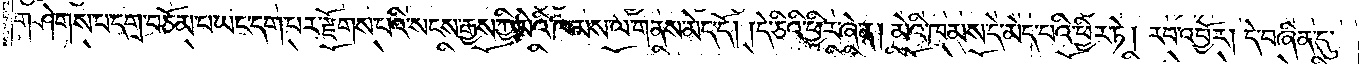གཤེགས་པ་དགྲ་བཅོམ་པ་ཡང་དག་པར་རྫོགས་པའི་སངས་རྒྱས་ཀྱི་མེའི་ཁམས་ལ་གནས་མེད་དོ། །དེ་ཅིའི་ཕྱིར་ཞེ་ན། མེའི་ཁམས་དེ་མེད་པའི་ཕྱིར་ཏེ། རབ་འབྱོར། དེ་བཞིན་དུ་
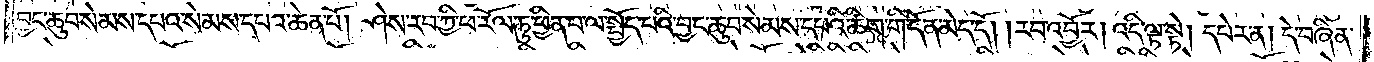བྱང་ཆུབ་སེམས་དཔའ་སེམས་དཔའ་ཆེན་པོ། ཤེས་རབ་ཀྱི་ཕ་རོལ་ཏུ་ཕྱིན་པ་ལ་སྤྱོད་པའི་བྱང་ཆུབ་སེམས་དཔའི་ཚིག་གི་དོན་མེད་དོ། །རབ་འབྱོར། འདི་ལྟ་སྟེ། དཔེར་ན། དེ་བཞིན་
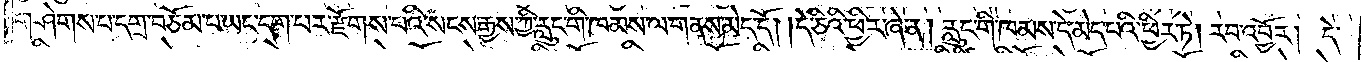གཤེགས་པ་དགྲ་བཅོམ་པ་ཡང་དག་པར་རྫོགས་པའི་སངས་རྒྱས་ཀྱི་རླུང་གི་ཁམས་ལ་གནས་མེད་དོ། །དེ་ཅིའི་ཕྱིར་ཞེ་ན། རླུང་གི་ཁམས་དེ་མེད་པའི་ཕྱིར་ཏེ། རབ་འབྱོར། དེ་
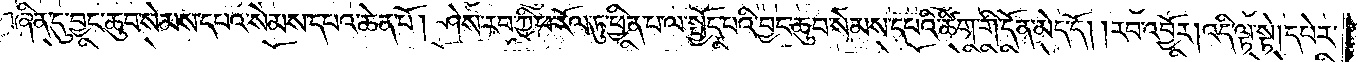བཞིན་དུ་བྱང་ཆུབ་སེམས་དཔའ་སེམས་དཔའ་ཆེན་པོ། ཤེས་རབ་ཀྱི་ཕ་རོལ་ཏུ་ཕྱིན་པ་ལ་སྤྱོད་པའི་བྱང་ཆུབ་སེམས་དཔའི་ཚིག་གི་དོན་མེད་དོ། །རབ་འབྱོར། འདི་ལྟ་སྟེ། དཔེར་
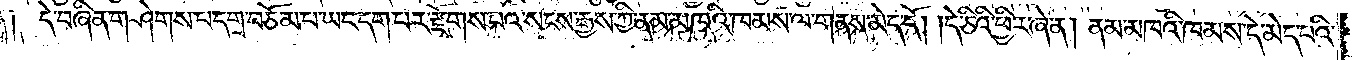ན། དེ་བཞིན་གཤེགས་པ་དགྲ་བཅོམ་པ་ཡང་དག་པར་རྫོགས་པའི་སངས་རྒྱས་ཀྱི་ནམ་མཁའི་ཁམས་ལ་གནས་མེད་དོ། །དེ་ཅིའི་ཕྱིར་ཞེ་ན། ནམ་མཁའི་ཁམས་དེ་མེད་པའི་
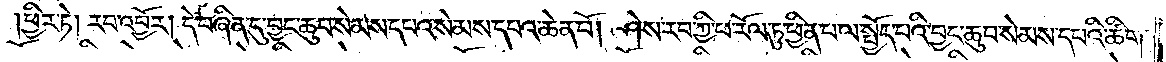ཕྱིར་ཏེ། རབ་འབྱོར། དེ་བཞིན་དུ་བྱང་ཆུབ་སེམས་དཔའ་སེམས་དཔའ་ཆེན་པོ། ཤེས་རབ་ཀྱི་ཕ་རོལ་ཏུ་ཕྱིན་པ་ལ་སྤྱོད་པའི་བྱང་ཆུབ་སེམས་དཔའི་ཚིག་
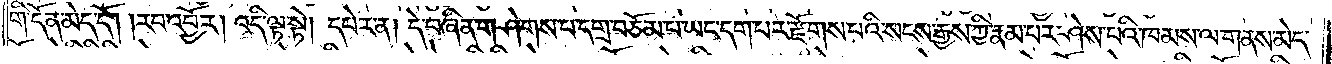གི་དོན་མེད་དོ། །རབ་འབྱོར། འདི་ལྟ་སྟེ། དཔེར་ན། དེ་བཞིན་གཤེགས་པ་དགྲ་བཅོམ་པ་ཡང་དག་པར་རྫོགས་པའི་སངས་རྒྱས་ཀྱི་རྣམ་པར་ཤེས་པའི་ཁམས་ལ་གནས་མེད་
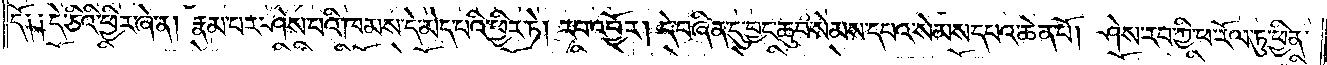དོ། །དེ་ཅིའི་ཕྱིར་ཞེ་ན། རྣམ་པར་ཤེས་པའི་ཁམས་དེ་མེད་པའི་ཕྱིར་ཏེ། རབ་འབྱོར། དེ་བཞིན་དུ་བྱང་ཆུབ་སེམས་དཔའ་སེམས་དཔའ་ཆེན་པོ། ཤེས་རབ་ཀྱི་ཕ་རོལ་ཏུ་ཕྱིན་
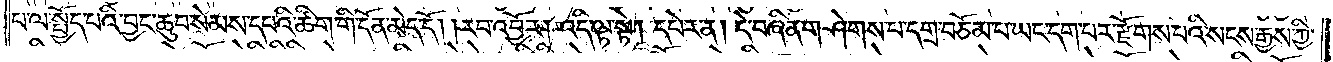པ་ལ་སྤྱོད་པའི་བྱང་ཆུབ་སེམས་དཔའི་ཚིག་གི་དོན་མེད་དོ། །རབ་འབྱོར། འདི་ལྟ་སྟེ། དཔེར་ན། དེ་བཞིན་གཤེགས་པ་དགྲ་བཅོམ་པ་ཡང་དག་པར་རྫོགས་པའི་སངས་རྒྱས་ཀྱི་
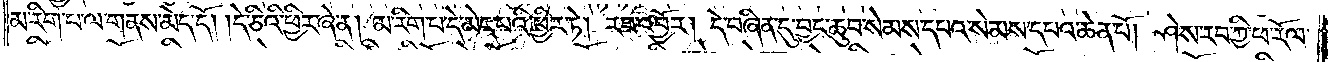མ་རིག་པ་ལ་གནས་མེད་དོ། །དེ་ཅིའི་ཕྱིར་ཞེ་ན། མ་རིག་པ་དེ་མེད་པའི་ཕྱིར་ཏེ། རབ་འབྱོར། དེ་བཞིན་དུ་བྱང་ཆུབ་སེམས་དཔའ་སེམས་དཔའ་ཆེན་པོ། ཤེས་རབ་ཀྱི་ཕ་རོལ་
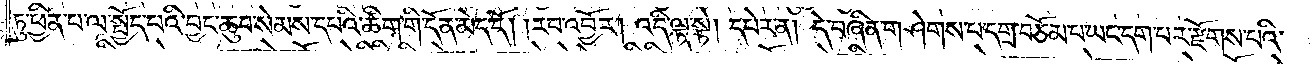ཏུ་ཕྱིན་པ་ལ་སྤྱོད་པའི་བྱང་ཆུབ་སེམས་དཔའི་ཚིག་གི་དོན་མེད་དོ། །རབ་འབྱོར། འདི་ལྟ་སྟེ། དཔེར་ན། དེ་བཞིན་གཤེགས་པ་དགྲ་བཅོམ་པ་ཡང་དག་པར་རྫོགས་པའི་
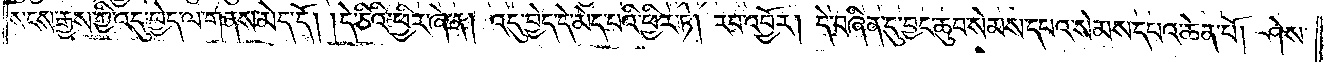སངས་རྒྱས་ཀྱི་འདུ་བྱེད་ལ་གནས་མེད་དོ། །དེ་ཅིའི་ཕྱིར་ཞེ་ན། འདུ་བྱེད་དེ་མེད་པའི་ཕྱིར་ཏེ། རབ་འབྱོར། དེ་བཞིན་དུ་བྱང་ཆུབ་སེམས་དཔའ་སེམས་དཔའ་ཆེན་པོ། ཤེས་
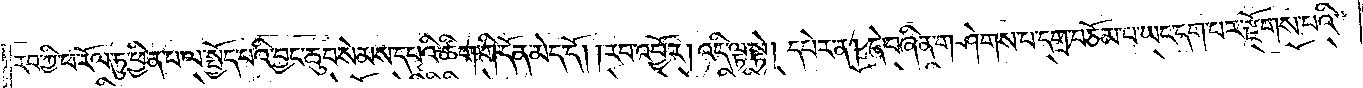རབ་ཀྱི་ཕ་རོལ་ཏུ་ཕྱིན་པ་ལ་སྤྱོད་པའི་བྱང་ཆུབ་སེམས་དཔའི་ཚིག་གི་དོན་མེད་དོ། །རབ་འབྱོར། འདི་ལྟ་སྟེ། དཔེར་ན། དེ་བཞིན་གཤེགས་པ་དགྲ་བཅོམ་པ་ཡང་དག་པར་རྫོགས་པའི་
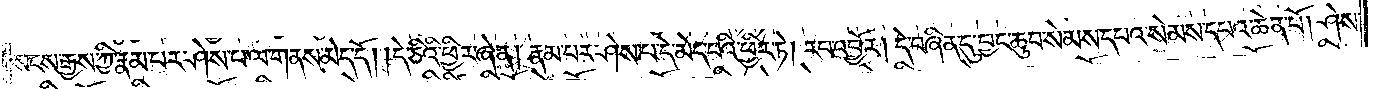སངས་རྒྱས་ཀྱི་རྣམ་པར་ཤེས་པ་ལ་གནས་མེད་དོ། །དེ་ཅིའི་ཕྱིར་ཞེ་ན། རྣམ་པར་ཤེས་པ་དེ་མེད་པའི་ཕྱིར་ཏེ། རབ་འབྱོར། དེ་བཞིན་དུ་བྱང་ཆུབ་སེམས་དཔའ་སེམས་དཔའ་ཆེན་པོ། ཤེས་
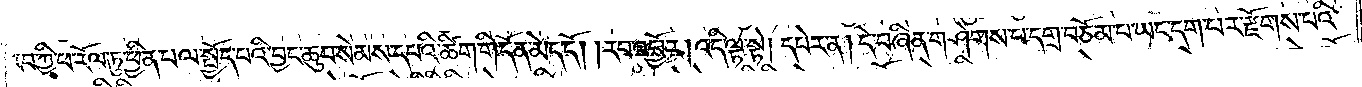རབ་ཀྱི་ཕ་རོལ་ཏུ་ཕྱིན་པ་ལ་སྤྱོད་པའི་བྱང་ཆུབ་སེམས་དཔའི་ཚིག་གི་དོན་མེད་དོ། །རབ་འབྱོར། འདི་ལྟ་སྟེ། དཔེར་ན། དེ་བཞིན་གཤེགས་པ་དགྲ་བཅོམ་པ་ཡང་དག་པར་རྫོགས་པའི་
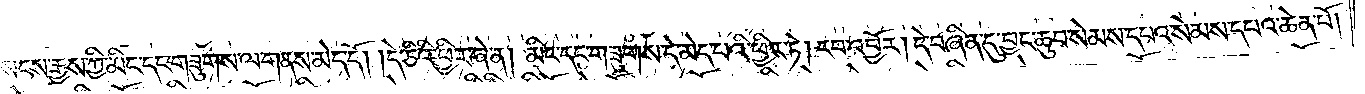སངས་རྒྱས་ཀྱི་མིང་དང་གཟུགས་ལ་གནས་མེད་དོ། །དེ་ཅིའི་ཕྱིར་ཞེ་ན། མིང་དང་གཟུགས་དེ་མེད་པའི་ཕྱིར་ཏེ། རབ་འབྱོར། དེ་བཞིན་དུ་བྱང་ཆུབ་སེམས་དཔའ་སེམས་དཔའ་ཆེན་པོ།
